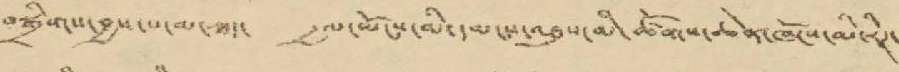བསྒྲིགས་བྱས་པ་མ་ཟད་ རྒྱལ་ཡོངས་མི་དམངས་འཐུས་མི་ཚོགས་ཆེན་ཁོངས་མི་རཊ་
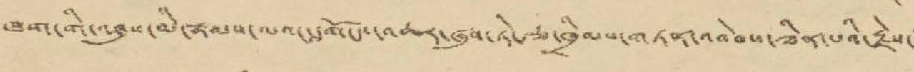ཁག་གི་འཐུས་མི་རྣམས་ལའང་གོངས་འཆར་ཞུས་ཏེ་རྩ་ཁྲིམས་གཏན་འབེབས་ཟིན་པའི་རྗེས་
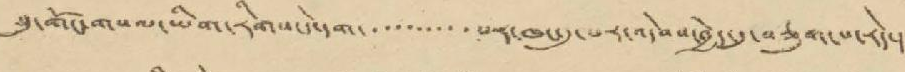སུ་གོང་གསལ་ཡིག་རིགས་དེ་དག་་་་་་་་་་པར་ཁང་དུ་པར་འདེབས་བྱེད་དུ་བཅུག་པ་རེད་།
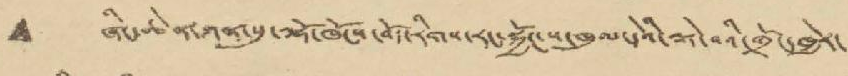• ཞིང་ཆེན་ཀན་སུ་ལྷོ་ཁོངས་བོད་རིགས་རང་སྐྱོང་ས་ཁུལ་དེའི་ལྟེ་བའི་གྲོང་ཁྱེར་
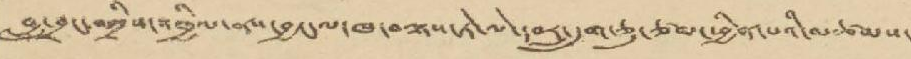བླ་བྲང་བཀྲིས་འཁྱིལ་ནས་བྱང་ལ་ཁ་བལྟས་ཏེ་ལེ་དབར་དྲུག་ཅུ་ཙམ་ཕྱིན་པའི་མཚམས་
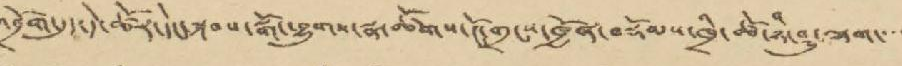འབྲོག་དུད་དེ་ཚོར་དེང་སྐབས་སྒོ་ཕྱུགས་སྣ་ཚོགས་ངོ་གྲངས་ཁྱོན་བསྡོམས་ཁྲི་ཚོ་ཉི་ཤུ་ལྷག་་་་
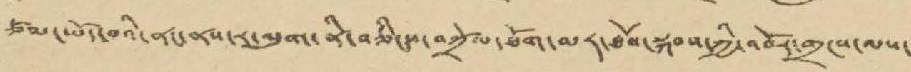ཙམ་ཡོད་པའི་ནང་ནས་ར་ལུག་ནི་བཅིངས་བཀྲོལ་ཐོག་མར་ཐོབ་སྐབས་ཀྱི་འབོར་གྲངས་ལས་
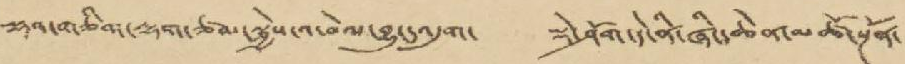ལྷག་གཅིག་ལྷག་ཙམ་སྐྱེས་འཕེལ་བྱུང་འདུག་ སྡེ་ཤོག་དེ་ནི་ཞིང་ཆེན་མཚོ་སྔོན་
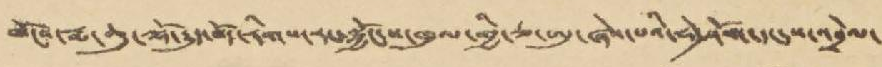ཁོངས་རྨ་ཆུ་ལྷོ་རྒྱུད་བོད་རིགས་རང་སྐྱོང་ས་ཁུལ་གྱི་ཅ་ཨུ་ཞེས་པའི་སྡེ་ཤོག་དང་ས་འབྲེལ་
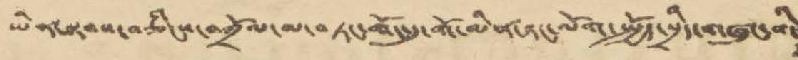ཡོན་སྟབས་བཅིངས་བཀྲོལ་མ་བཏང་གོང་དུ་གོ་མིན་དང་ལོག་སྤྱོད་སྲིད་གཞུང་ག
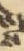ས
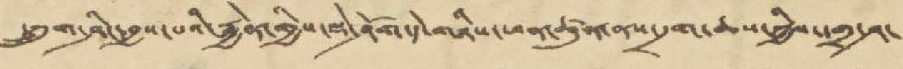དཀྲུག་ཤིང་བྱས་པའི་རྐྱེན་གྱིས་སྡེ་ཤོག་དེ་གཉིས་ཕན་ཚུན་ནས་དྲག་ཆས་ཀྱིས་དགྲ་ཤ་
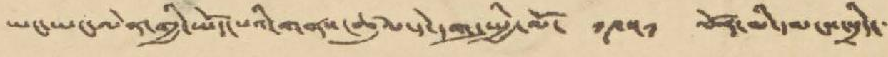ཡང་ཡང་ལེན་གྱི་ཡོད་པའི་གནས་ཚུལ་དེ་དག་སྤྱི་ལོ་ ༡༩༥༡ ལོར་མི་དམངས་སྲིད་་་
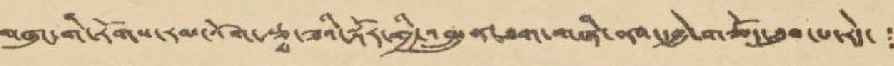གཞུང་གི་རོགས་རམ་འོག་རྩྭ་ཟའི་སྐོར་གྱི་འཁྲུན་ཐག་གཞི་ནས་དབྱེ་གཅོད་ཐུབ་པ་རེད་ ་
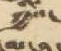ཀྱིས་
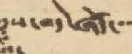དུས་བདེ་ཞོད་་
